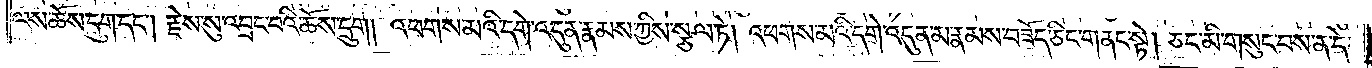ལས་ཆོས་དྲུག་དང༌། རྗེས་སུ་འབྲང་བའི་ཆོས་དྲུག །འཕགས་མའི་དགེ་འདུན་རྣམས་ཀྱིས་སྩལ་ཏེ། འཕགས་མའི་དགེ་འདུན་མ་རྣམས་བཟོད་ཅིང་གནང་སྟེ། ཅང་མི་གསུང་བས་ན་དེ་
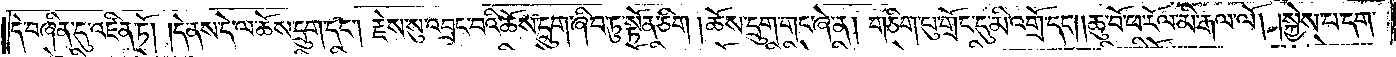དེ་བཞིན་དུ་འཛིན་ཏོ། །དེ་ནས་ད་ལ་ཆོས་དྲུག་དང༌། རྗེས་སུ་འབྲང་བའི་ཆོས་དྲུག་ཞིབ་ཏུ་སྟོན་ཅིག །ཆོས་དྲུག་གང་ཞེ་ན། གཅིག་པུ་གྲོང་དུ་མི་འགྲོ་དང༌། ཆུ་བོ་ཕ་རོལ་མི་རྒལ་ལོ། །སྐྱེས་པ་དག་
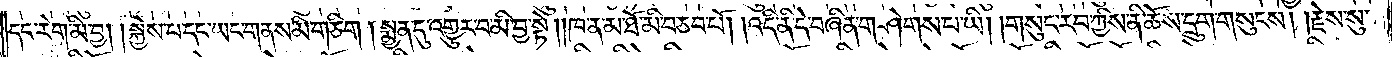དང་རེག་མི་བྱ། །སྐྱེས་པ་དང་ཡང་གནས་མི་གཅིག །སྨྱན་དུ་འགྱུར་བ་མི་བྱ་སྟེ། །ཁ་ན་མ་ཐོ་མི་བཅབ་བོ། །འདི་ནི་དེ་བཞིན་གཤེགས་པ་ཡི། །གསུང་རབ་ཀྱིས་ནི་ཆོས་དྲུག་གསུངས། །རྗེས་སུ་
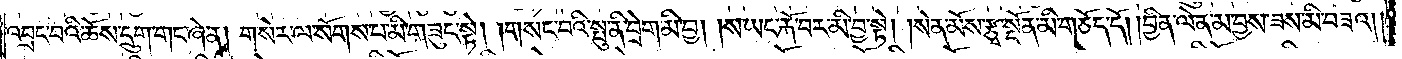འབྲང་བའི་ཆོས་དྲུག་གང་ཞེ་ན། གསེར་ལ་སོགས་པ་མི་གཟུང་སྟེ། །གསང་བའི་སྤུ་ནི་བྲེག་མི་བྱ། །ས་ཡང་རྐོ་བར་མི་བྱ་སྟེ། །སེན་མོས་རྩྭ་སྔོན་མི་གཅོད་དོ། །བྱིན་ལེན་མ་བྱས་ཟས་མི་བཟའ། །
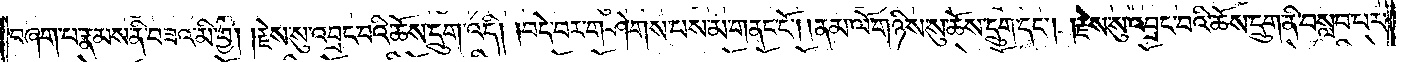བཞག་པ་རྣམས་ནི་བཟའ་མི་བྱ། །རྗེས་སུ་འབྲང་བའི་ཆོས་དྲུག་འདི། །བདེ་བར་གཤེགས་པས་མ་གནང་ངོ༌། །ནམ་ལོ་གཉིས་སུ་ཆོས་དྲུག་དང༌། །རྗེས་སུ་འབྲང་བའི་ཆོས་དྲུག་ནི་བསླབ་པར་
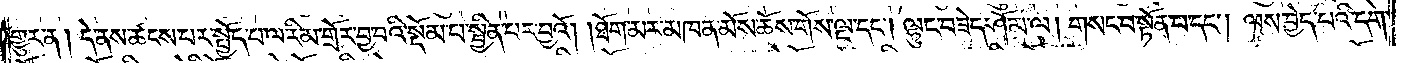གྱུར་ན། དེ་ནས་ཚངས་པར་སྤྱོད་པ་ལ་རིམ་གྲོར་བྱ་བའི་སྡོམ་པ་སྦྱིན་པར་བྱའོ། །ཐོག་མར་མཁན་མོས་ཆོས་གོས་ལྔ་དང༌། ལྷུང་བཟེད་ཤོམ་ལ། གསང་བ་སྟོན་པ་དང༌། ལས་བྱེད་པའི་དགེ་
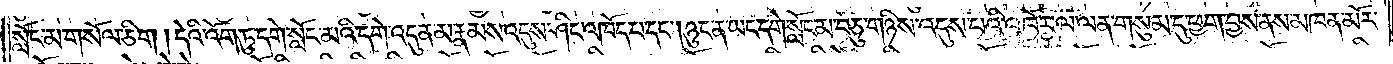སློང་མ་གསོལ་ཅིག །དེའི་འོག་ཏུ་དགེ་སློང་མའི་དགེ་འདུན་མ་རྣམས་འདུས་ཤིང་འཁོད་པ་དང༌། ཉུང་ན་ཡང་དགེ་སློང་མ་བཅུ་གཉིས་འདུས་པའི་འཁོར་ལ་ལན་གསུམ་དུ་ཕྱག་བྱས་ནས་མཁན་མོར་
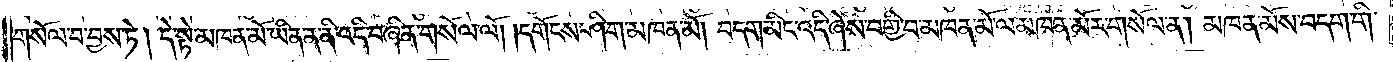གསོལ་པ་བྱས་ཏེ། དེ་སྟེ་མཁན་མོ་ཡིན་ན་ནི་འདི་བཞིན་གསོལ་ལོ། །དགོངས་ཤིག་མཁན་མོ། བདག་མིང་འདི་ཞེས་བགྱི་བ་མཁན་མོ་ལ་མཁན་མོར་གསོལ་ན། མཁན་མོས་བདག་གི་
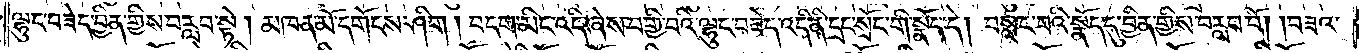ལྷུང་བཟེད་བྱིན་གྱིས་བརླབ་སྟེ། མཁན་མོ་དགོངས་ཤིག །བདག་མིང་འདི་ཞེས་བགྱི་བའི་ལྷུང་བཟེད་འདི་ནི་དྲང་སྲོང་གི་སྣོད་དེ། བསླང་བའི་སྣོད་དུ་བྱིན་གྱིས་བརླབ་བོ། །བཟའ་
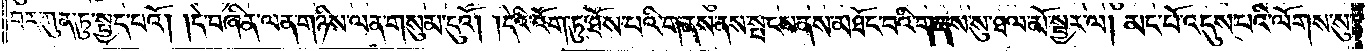བར་ཀུན་ཏུ་སྤྱད་པའོ། །དེ་བཞིན་ལན་གཉིས་ལན་གསུམ་དུའོ། །དེའི་འོག་ཏུ་ཐོས་པའི་གནས་ནས་སྤངས་ནས་མཐོང་བའི་གནས་སུ་ཐལ་མོ་སྦྱར་ལ། མང་པོ་འདུས་པའི་ལོགས་སུ་
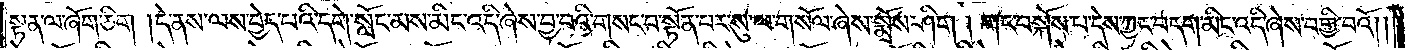སྟན་ལ་ཞོག་ཅིག །དེ་ནས་ལས་བྱེད་པའི་དགེ་སློང་མས་མིང་འདི་ཞེས་བྱ་བའི་གསང་བ་སྟོན་པར་སུ་ལ་གསོལ་ཞེས་སྨྲོས་ཤིག །གང་བསྐོས་པ་དེས་ཀྱང་བདག་མིང་འདི་ཞེས་བགྱི་བའོ། །
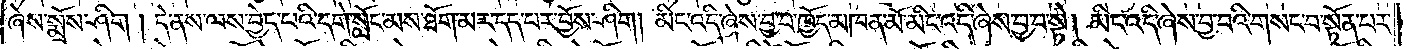ཞེས་སྨྲོས་ཤིག །དེ་ནས་ལས་བྱེད་པའི་དགེ་སློང་མས་ཐོག་མར་དད་པར་བྱོས་ཤིག། མིང་འདི་ཞེས་བྱ་བ་ཁྱོད་མཁན་མོ་མིང་འདི་ཞེས་བྱ་བ་སྟེ། མིང་འདི་ཞེས་བྱ་བའི་གསང་བ་སྟོན་པར་
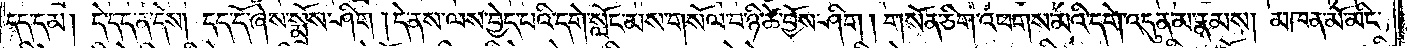དད་དམ། དེ་དད་ན་དེས། དད་དོ་ཞེས་སྨྲོས་ཤིག། དེ་ནས་ལས་བྱེད་པའི་དགེ་སློང་མས་གསོལ་བ་ཉི་ཚེ་བྱོས་ཤིག །གསོན་ཅིག་འཕགས་མའི་དགེ་འདུན་མ་རྣམས། མཁན་མོ་མིང་
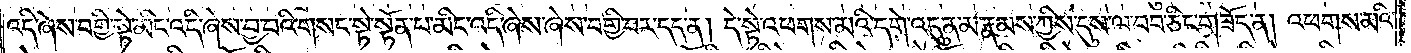འདི་ཞེས་བགྱི་སྟེ་མིང་འདི་ཞེས་བྱ་བའི་གསང་སྟེ་སྟོན་པ་མིང་འདི་ཞེས་ཞེས་བགྱི་བར་དད་ན། དེ་སྟེ་འཕགས་མའི་དགེ་འདུན་མ་རྣམས་ཀྱིས་དུས་ལ་བབ་ཅིང་གཟོད་ན། འཕགས་མའི་
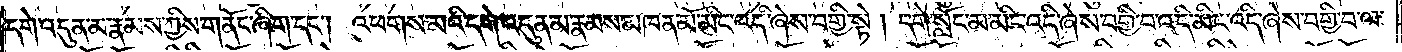དགེ་འདུན་མ་རྣམས་ཀྱིས་གནོང་ཞིག་དང༌། འཕགས་མའི་དགེ་འདུན་མ་རྣམས་མཁན་མོ་མིང་འདི་ཞེས་བགྱི་སྟེ། དགེ་སློང་མ་མིང་འདི་ཞེས་བགྱི་བ་འདི་མིང་འདི་ཞེས་བགྱི་བ་ལ་
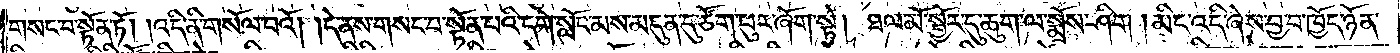གསང་བ་སྟོན་ཏོ། །འདི་ནི་གསོལ་བའོ། །དེ་ནས་གསང་བ་སྟོན་པའི་དགེ་སློང་མས་མདུན་དུ་ཙོག་པུར་ཞོག་སྟེ། ཐལ་མོ་སྦྱོར་དུ་ཆུག་ལ་སྨྲོས་ཤིག །མིང་འདི་ཞེས་བྱ་བ་ཁྱོད་ཉོན་
